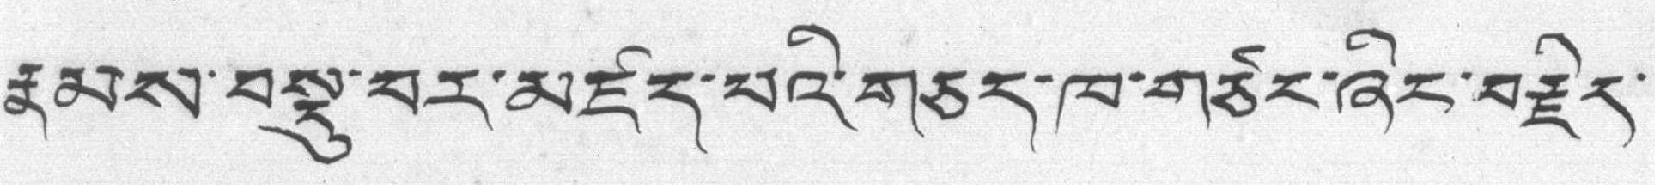རྣམས་བསྡུ་བར་མཛད་པའི་གཅད་ཁ་གཙང་ཞིང་བརྗིད་
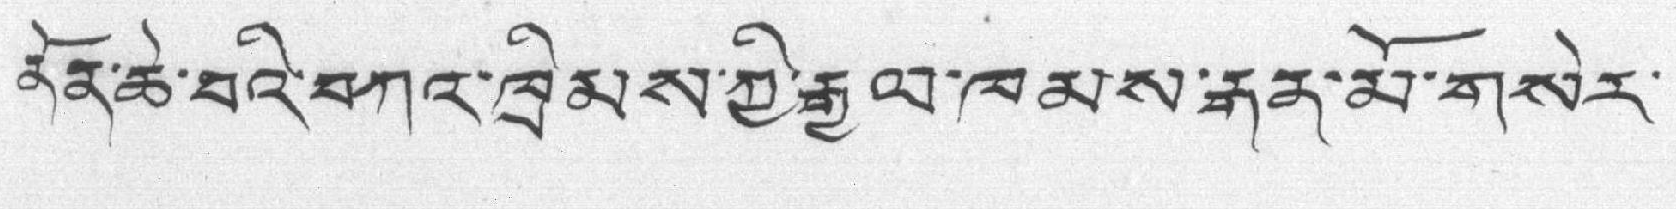ནོན་ཆེ་བའི་བཀའ་ཁྲིམས་ཀྱི་རྒྱལ་ཁམས་རྒན་མོ་གསེར་
